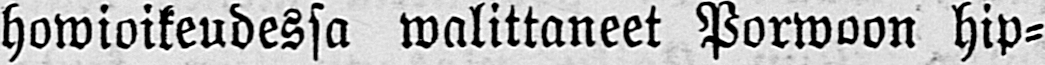howioikeudessa walittaneet Porwoon hip-
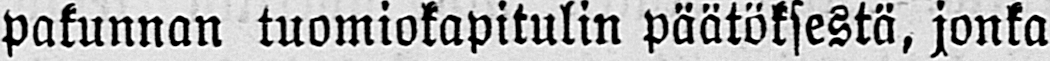pakunnan tuomiokapitulin päätöksestä, jonka
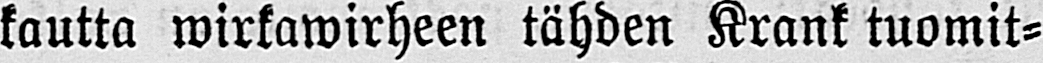kautta wirkawirheen tähden Krank tuomit-
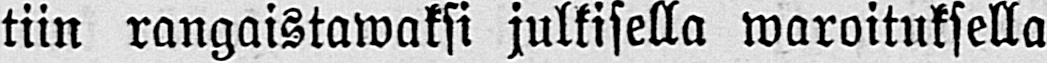tiin rangaistawaksi julkisella waroituksella
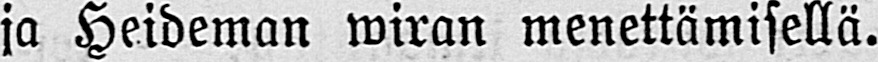ja Heideman wiran menettämisellä.
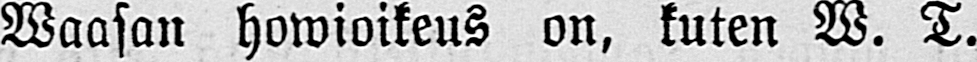Waasan howioikeus on, kuten W. T.
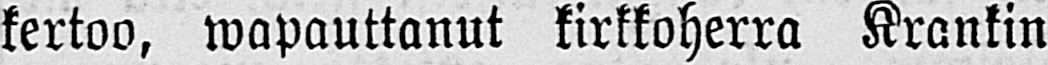kertoo, wapauttanut kirkkoherra Krankin
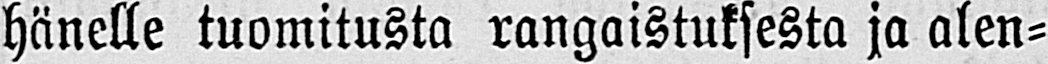hänelle tuomitusta rangaistuksesta ja alen-
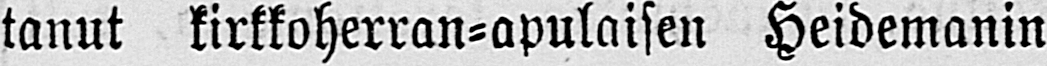tanut kirkkoherran-apulaisen Heidemanin
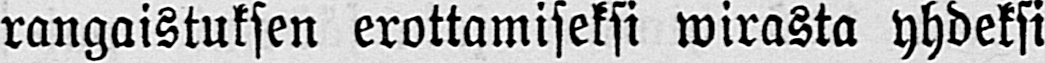rangaistuksen erottamiseksi wirasta yhdeksi
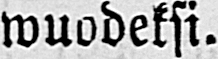wuodeksi.
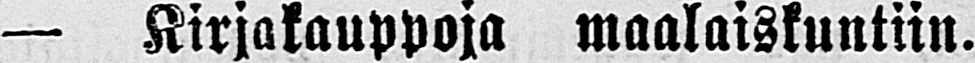—- Kirjakauppoja maalaiskuntiin.
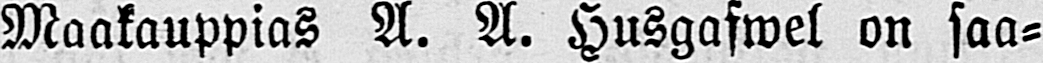Maakauppias A. A. Husgafwel on saa-
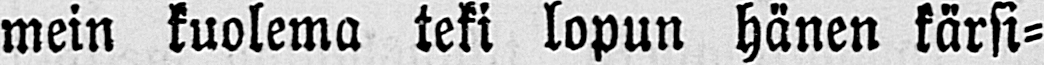mein kuolewa teki lopun hänen kärsi-
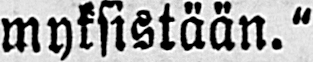myksistään."
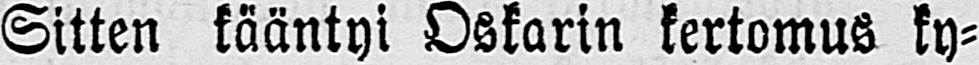Sitten kääntyi Oskarin kertomus ky-
